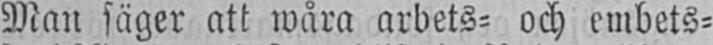Man säger att wåra arbets- och embets-
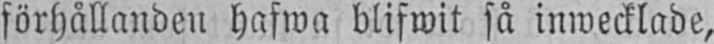förhållanden hafwa blifwit så inwecklade,
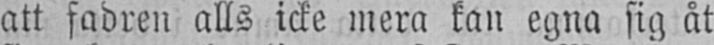att fadren alls icke mera kan egna sig åt
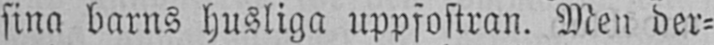sina barns husliga uppfostran. Men der-
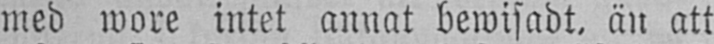med wore intet annat bewisadt, än att
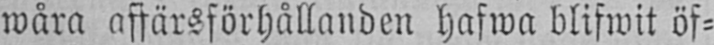wåra affärsförhållanden hafwa blifwit öf-
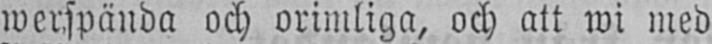werspända och orimliga, och att wi med
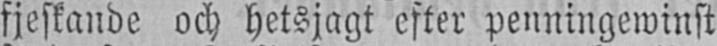fjeskande och hetsjagt efter penningewinst
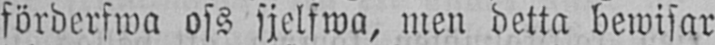förderfwa oss sjelfwa, men detta bewisar
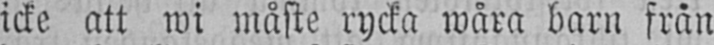icke att wi måste rycka wåra barn från
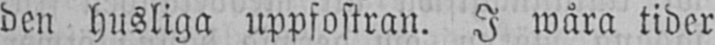den husliga uppfostran. I wåra tider
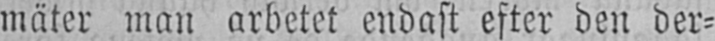mäter man arbetet endast efter den der-
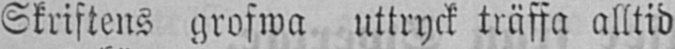Skriftens grofwa uttryck träffa alltid
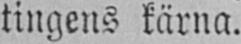tingens kärna.
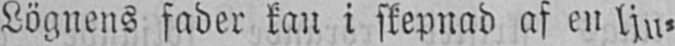Lögnens fader kan i skepnad af en lju-
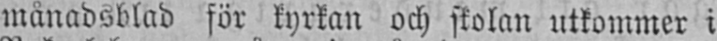månadsblad för kyrkan och skolan utkommer i
